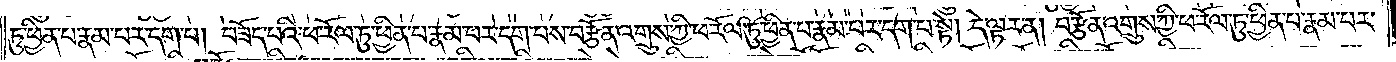ཏུ་ཕྱིན་པ་རྣམ་པར་དག་པ། བཟོད་པའི་ཕ་རོལ་ཏུ་ཕྱིན་པ་རྣམ་པར་དག་པས་བརྩོན་འགྲུས་ཀྱི་ཕ་རོལ་ཏུ་ཕྱིན་པ་རྣམ་པར་དག་པ་སྟེ། དེ་ལྟར་ན། བརྩོན་འགྲུས་ཀྱི་ཕ་རོལ་ཏུ་ཕྱིན་པ་རྣམ་པར་
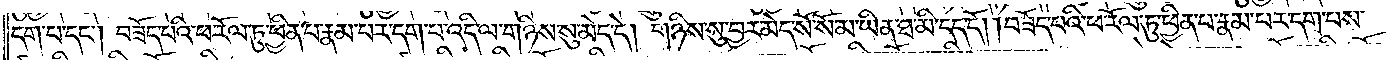དག་པ་དང༌། བཟོད་པའི་ཕ་རོལ་ཏུ་ཕྱིན་པ་རྣམ་པར་དག་པ་འདི་ལ་གཉིས་སུ་མེད་དེ། གཉིས་སུ་བྱར་མེད་སོ་སོ་མ་ཡིན་ཐ་མི་དད་དོ། །བཟོད་པའི་ཕ་རོལ་ཏུ་ཕྱིན་པ་རྣམ་པར་དག་པས་
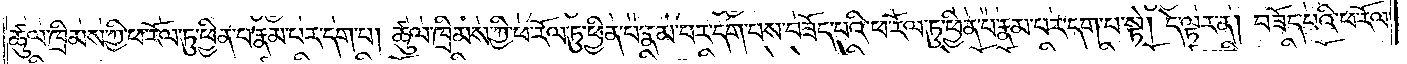ཚུལ་ཁྲིམས་ཀྱི་ཕ་རོལ་ཏུ་ཕྱིན་པ་རྣམ་པར་དག་པ། ཚུལ་ཁྲིམས་ཀྱི་ཕ་རོལ་ཏུ་ཕྱིན་པ་རྣམ་པར་དག་པས་བཟོད་པའི་ཕ་རོལ་ཏུ་ཕྱིན་པ་རྣམ་པར་དག་པ་སྟེ། དེ་ལྟར་ན། བཟོད་པའི་ཕ་རོལ་
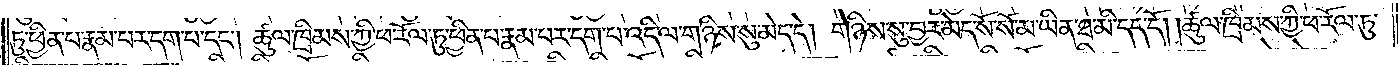ཏུ་ཕྱིན་པ་རྣམ་པར་དག་པ་དང༌། ཚུལ་ཁྲིམས་ཀྱི་ཕ་རོལ་ཏུ་ཕྱིན་པ་རྣམ་པར་དག་པ་འདི་ལ་གཉིས་སུ་མེད་དེ། གཉིས་སུ་བྱར་མེད་སོ་སོ་མ་ཡིན་ཐ་མི་དད་དོ། །ཚུལ་ཁྲིམས་ཀྱི་ཕ་རོལ་ཏུ་
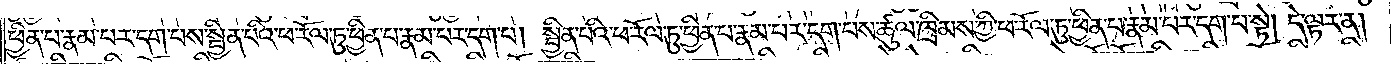ཕྱིན་པ་རྣམ་པར་དག་པས་སྦྱིན་པའི་ཕ་རོལ་ཏུ་ཕྱིན་པ་རྣམ་པར་དག་པ། སྦྱིན་པའི་ཕ་རོལ་ཏུ་ཕྱིན་པ་རྣམ་པར་དག་པས་ཚུལ་ཁྲིམས་ཀྱི་ཕ་རོལ་ཏུ་ཕྱིན་པ་རྣམ་པར་དག་པ་སྟེ། དེ་ལྟར་ན།
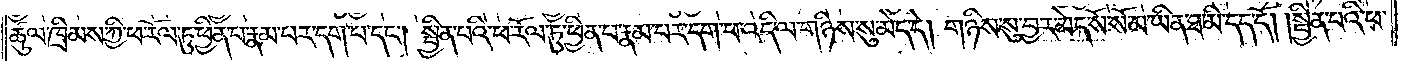ཚུལ་ཁྲིམས་ཀྱི་ཕ་རོལ་ཏུ་ཕྱིན་པ་རྣམ་པར་དག་པ་དང༌། སྦྱིན་པའི་ཕ་རོལ་ཏུ་ཕྱིན་པ་རྣམ་པར་དག་པ་འདི་ལ་གཉིས་སུ་མེད་དེ། གཉིས་སུ་བྱར་མེད་སོ་སོ་མ་ཡིན་ཐ་མི་དད་དོ། །སྦྱིན་པའི་ཕ་
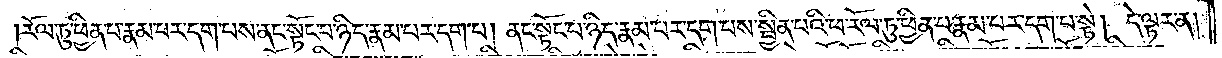རོལ་ཏུ་ཕྱིན་པ་རྣམ་པར་དག་པས་ནང་སྟོང་པ་ཉིད་རྣམ་པར་དག་པ། ནང་སྟོང་པ་ཉིད་རྣམ་པར་དག་པས་སྦྱིན་པའི་ཕ་རོལ་ཏུ་ཕྱིན་པ་རྣམ་པར་དག་པ་སྟེ། དེ་ལྟར་ན།
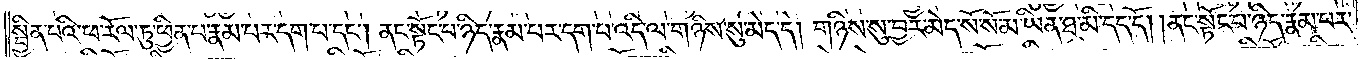སྦྱིན་པའི་ཕ་རོལ་ཏུ་ཕྱིན་པ་རྣམ་པར་དག་པ་དང༌། ནང་སྟོང་པ་ཉིད་རྣམ་པར་དག་པ་འདི་ལ་གཉིས་སུ་མེད་དེ། གཉིས་སུ་བྱར་མེད་སོ་སོ་མ་ཡིན་ཐ་མི་དད་དོ། །ནང་སྟོང་པ་ཉིད་རྣམ་པར་
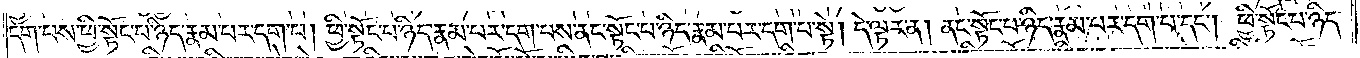དག་པས་ཕྱི་སྟོང་པ་ཉིད་རྣམ་པར་དག་པ། ཕྱི་སྟོང་པ་ཉིད་རྣམ་པར་དག་པས་ནང་སྟོང་པ་ཉིད་རྣམ་པར་དག་པ་སྟེ། དེ་ལྟར་ན། ནང་སྟོང་པ་ཉིད་རྣམ་པར་དག་པ་དང༌། ཕྱི་སྟོང་པ་ཉིད་
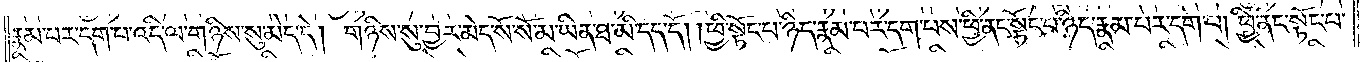རྣམ་པར་དག་པ་འདི་ལ་གཉིས་སུ་མེད་དེ། གཉིས་སུ་བྱར་མེད་སོ་སོ་མ་ཡིན་ཐ་མི་དད་དོ། །ཕྱི་སྟོང་པ་ཉིད་རྣམ་པར་དག་པས་ཕྱི་ནང་སྟོང་པ་ཉིད་རྣམ་པར་དག་པ། ཕྱི་ནང་སྟོང་པ་
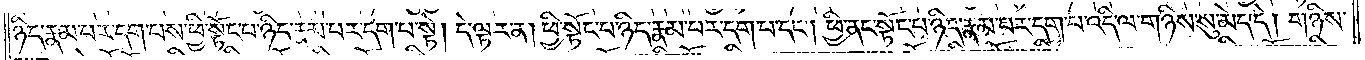ཉིད་རྣམ་པར་དག་པས་ཕྱི་སྟོང་པ་ཉིད་རྣམ་པར་དག་པ་སྟེ། དེ་ལྟར་ན། ཕྱི་སྟོང་པ་ཉིད་རྣམ་པར་དག་པ་དང༌། ཕྱི་ནང་སྟོང་པ་ཉིད་རྣམ་པར་དག་པ་འདི་ལ་གཉིས་སུ་མེད་དེ། གཉིས་
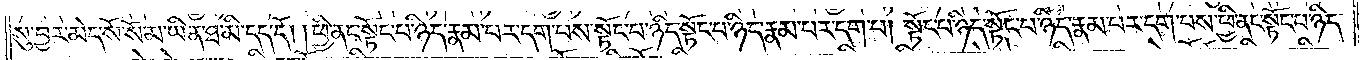སུ་བྱར་མེད་སོ་སོ་མ་ཡིན་ཐ་མི་དད་དོ། །ཕྱི་ནང་སྟོང་པ་ཉིད་རྣམ་པར་དག་པས་སྟོང་པ་ཉིད་སྟོང་པ་ཉིད་རྣམ་པར་དག་པ། སྟོང་པ་ཉིད་སྟོང་པ་ཉིད་རྣམ་པར་དག་པས་ཕྱི་ནང་སྟོང་པ་ཉིད་
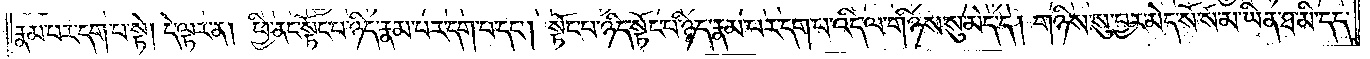རྣམ་པར་དག་པ་སྟེ། དེ་ལྟར་ན། ཕྱི་ནང་སྟོང་པ་ཉིད་རྣམ་པར་དག་པ་དང༌། སྟོང་པ་ཉིད་སྟོང་པ་ཉིད་རྣམ་པར་དག་པ་འདི་ལ་གཉིས་སུ་མེད་དེ། གཉིས་སུ་བྱར་མེད་སོ་སོ་མ་ཡིན་ཐ་མི་དད་
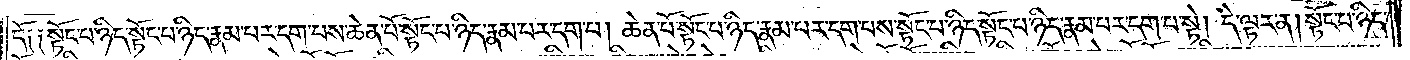དོ༑ ༑སྟོང་པ་ཉིད་སྟོང་པ་ཉིད་རྣམ་པར་དག་པས་ཆེན་པོ་སྟོང་པ་ཉིད་རྣམ་པར་དག་པ། ཆེན་པོ་སྟོང་པ་ཉིད་རྣམ་པར་དག་པས་སྟོང་པ་ཉིད་སྟོང་པ་ཉིད་རྣམ་པར་དག་པ་སྟེ། དེ་ལྟར་ན། སྟོང་པ་ཉིད་
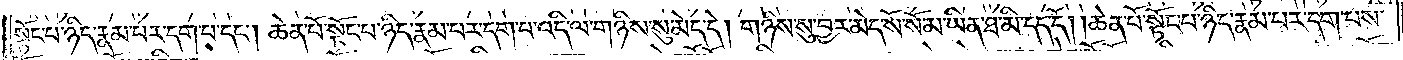སྟོང་པ་ཉིད་རྣམ་པར་དག་པ་དང༌། ཆེན་པོ་སྟོང་པ་ཉིད་རྣམ་པར་དག་པ་འདི་ལ་གཉིས་སུ་མེད་དེ། གཉིས་སུ་བྱར་མེད་སོ་སོ་མ་ཡིན་ཐ་མི་དད་དོ། །ཆེན་པོ་སྟོང་པ་ཉིད་རྣམ་པར་དག་པས་
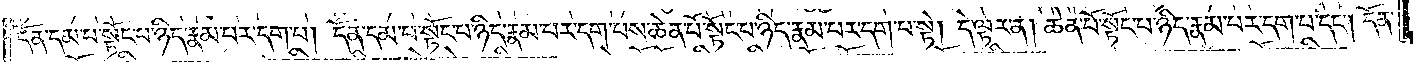དོན་དམ་པ་སྟོང་པ་ཉིད་རྣམ་པར་དག་པ། དོན་དམ་པ་སྟོང་པ་ཉིད་རྣམ་པར་དག་པས་ཆེན་པོ་སྟོང་པ་ཉིད་རྣམ་པར་དག་པ་སྟེ། དེ་ལྟར་ན། ཆེན་པོ་སྟོང་པ་ཉིད་རྣམ་པར་དག་པ་དང༌། དོན་
